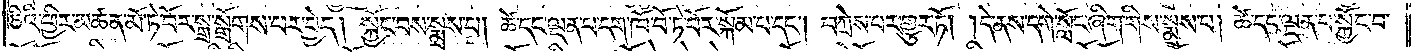ཅིའི་ཕྱིར་མཚན་མོ་ཏེ་བོར་སྒྲ་སྒྲོགས་པར་བྱེད། སྐྱོང་བས་སྨྲས་པ། ཚེ་དང་ལྡན་པ་དག་ཁོ་བོ་ཏེ་བོར་སྐོམ་པ་དང༌། བཀྲེས་པར་གྱུར་ཏོ། །དེ་ནས་དགེ་སློང་ཞིག་གིས་སྨྲས་པ། ཚེ་དང་ལྡན་པ་སྐྱོང་བ་
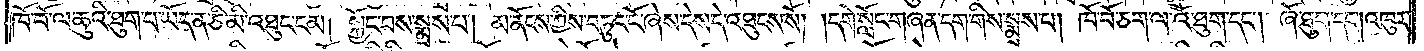ཁོ་བོ་ལ་ཆུའི་ཐུག་པ་ཡོད་ན་ཅི་མི་འཐུང་ངམ། སྐྱོང་བས་སྨྲས་པ། མ་ནོངས་ཀྱིས་བཏུང་ངོ་ཞེས་དེས་དེ་འཐུངས་སོ། །དགེ་སློང་གཞན་དག་གིས་སྨྲས་པ། ཁོ་བོ་ཅག་ལ་འོ་ཐུག་དང༌། ཞོ་ཐུག་དང༌། འཁུར་
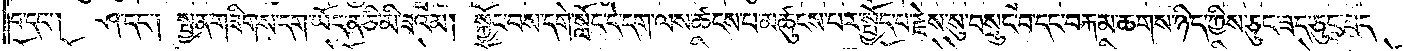བ་དང༌། ཤ་དང༌། སྤྱན་གཟིགས་དག་ཡོད་ན་ཅི་མི་ཟའམ། སྐྱོང་བས་དགེ་སློང་དེ་དག་ལས་ཚངས་པ་མཚུངས་པར་སྤྱོད་པ་རྗེས་སུ་བསྲུང་བ་དང་བརྐམ་ཆགས་ཉིད་ཀྱིས་ཅུང་ཟད་ཅུང་ཟད་
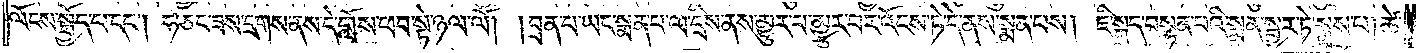ལོངས་སྤྱོད་པ་དང༌། ཧ་ཅང་ཟས་དྲགས་ནས་དེ་གློས་ཕབ་སྟེ་ཉལ་ལོ། །བྲན་པ་ཡང་སྨན་པ་ལ་དྲིས་ནས་མྱུར་བ་མྱུར་བར་འོངས་ཏེ་དེ་ནས་སྨན་པས། ཇི་སྐད་བསྟན་པའི་སྨན་སྦྱར་ཏེ་སྨྲས་པ། ཚེ་
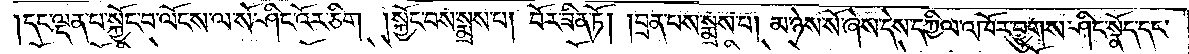དང་ལྡན་པ་སྐྱོང་བ་ལོངས་ལ་སོ་ཤིང་འོར་ཅིག །སྐྱོང་བས་སྨྲས་པ། བོར་ཟིན་ཏོ། །བྲན་པས་སྨྲས་པ། མ་ཉེས་སོ་ཞེས་དེས་དཀྱིལ་འཁོར་བྱུགས་ཤིང་སྣོད་དང་
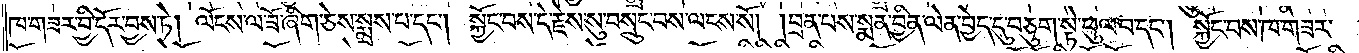ཁ་གཟར་བྱི་དོར་བྱས་ཏེ། ལོངས་ལ་ཟོ་ཞིག་ཅེས་སྨྲས་པ་དང༌། སྐྱོང་བས་དེ་རྗེས་སུ་བསྲུང་བས་ལངས་སོ། །བྲན་པས་སྨན་བྱིན་ལེན་བྱེད་དུ་བཅུག་སྟེ་ཕུལ་བ་དང༌། སྐྱོང་བས་ཁ་གཟར་
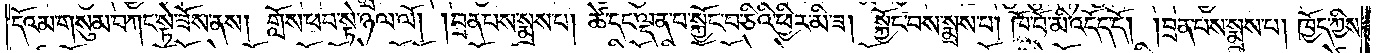དོའམ་གསུམ་བཀང་སྟེ་ཟོས་ནས། གློས་ཕབ་སྟེ་ཉལ་ལོ། །བྲན་པས་སྨྲས་པ། ཚེ་དང་ལྡན་པ་སྐྱོང་བ་ཅིའི་ཕྱིར་མི་ཟ། སྐྱོང་བས་སྨྲས་པ། ཁོ་བོ་མི་འདོད་དོ། །བྲན་པས་སྨྲས་པ། ཁྱོད་ཀྱིས་
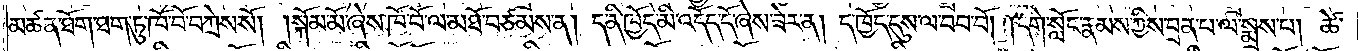མཚན་ཐོག་ཐག་ཏུ་ཁོ་བོ་བཀྲེས་སོ། །སྐོམ་མོ་ཞེས་ཁོ་བོ་ལ་མཐོ་བཙམས་ན། ད་ནི་ཁྱོད་མི་འདོད་དོ་ཞེས་ཟེར་ན། ད་ཁྱོད་དུས་ལ་བབ་བོ། །དགེ་སློང་རྣམས་ཀྱིས་བྲན་པ་ལ་སྨྲས་པ། ཚེ་
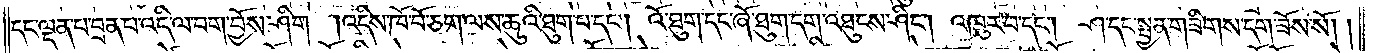དང་ལྡན་པ་བྲན་པ་འདི་ལ་བག་བྱོས་ཤིག །འདིས་ཁོ་བོ་ཅག་ལས་ཆུའི་ཐུག་པ་དང༌། འོ་ཐུག་དང་ཞོ་ཐུག་དག་འཐུངས་ཤིང༌། འཁུར་བ་དང༌། ཤ་དང་སྤྱན་གཟིགས་དག་ཟོས་སོ། །
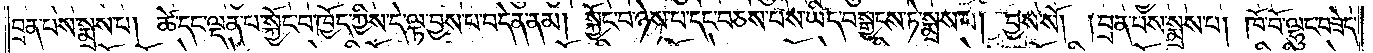བྲན་པས་སྨྲས་པ། ཚེ་དང་ལྡན་པ་སྐྱོང་བ་ཁྱོད་ཀྱིས་དེ་ལྟ་བྱས་པ་བདེན་ནམ། སྐྱོང་བ་ཉེས་པ་དང་བཅས་པས་ཡིད་བསྒྱངས་ཏེ་སྨྲས་པ། བྱས་སོ། །བྲན་པས་སྨྲས་པ། ཁོ་བོ་ལྷུང་བཟེད་
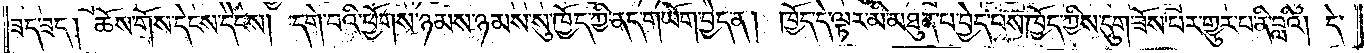ཟད་ཟད། ཆོས་གོས་དེངས་དེངས། དགེ་བའི་ཕྱོགས་ཉམས་ཉམས་སུ་ཁྱོད་ཀྱི་ནད་གཡོག་བྱེད་ན། ཁྱོད་དེ་ལྟར་མི་མཐུན་པ་བྱེད་པས་ཁྱོད་ཀྱིས་དུག་ཟོས་པར་གྱུར་པ་ནི་བླའི། དེ་
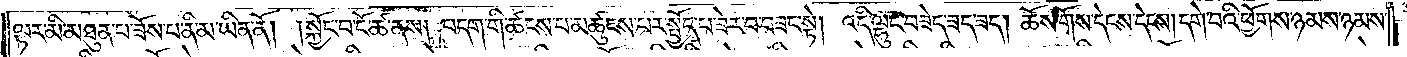ལྟར་མི་མཐུན་པ་ཟོས་པ་ནི་མ་ཡིན་ནོ། །སྐྱོང་བ་ངོ་ཚ་ནས། བདག་གི་ཚངས་པ་མཚུངས་པར་སྤྱོད་པ་ཟེར་བ་བཟང་སྟེ། འདི་ལྷུང་བཟེད་ཟད་ཟད། ཆོས་གོས་དེངས་དེངས། དགེ་བའི་ཕྱོགས་ཉམས་ཉམས་
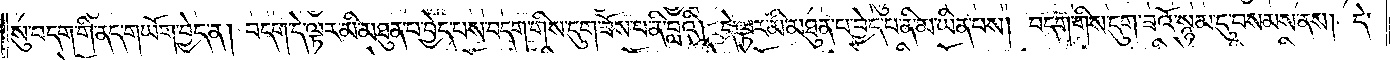སུ་བདག་གི་ནད་གཡོག་བྱེད་ན། བདག་དེ་ལྟར་མི་མཐུན་པ་བྱེད་པས་བདག་གིས་དུག་ཟོས་པ་ནི་བླའི། དེ་ལྟར་མི་མཐུན་པ་བྱེད་པ་ནི་མ་ཡིན་པས། བདག་གིས་དུག་ཟའོ་སྙམ་དུ་བསམས་ནས། དེ་
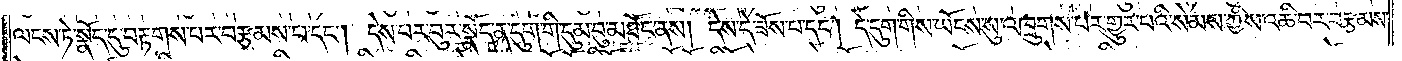ལངས་ཏེ་སྣོད་དུ་བརྟགས་པར་བརྩམས་པ་དང༌། དེས་པར་བུར་སྣོད་ན་དུག་གི་དུམ་བུ་མཐོང་ནས། དེས་དེ་ཟོས་པ་དང༌། དེ་དུག་གིས་ཡོངས་སུ་འཁྲུགས་པར་གྱུར་པའི་སེམས་ཀྱིས་འཆི་བར་བརྩམས་
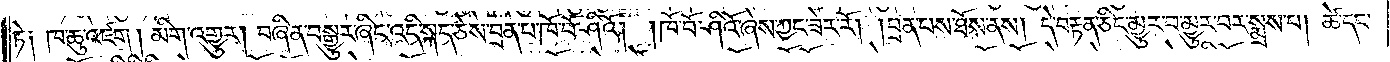ཏེ༑ ཁ་ཆུ་འཛག། མིག་འགྱུར། བཞིན་བསྒྱུར་ཞིང་འདི་སྐད་ཅེས་བྲན་པ་ཁོ་བོ་ཤིའོ། །ཁོ་བོ་ཤིའོ་ཞེས་ཀྱང་ཟེར་རོ། །བྲན་པས་ཐོས་ནས། དེ་བརྟན་ཅིང་མྱུར་བ་མྱུར་བར་སྨྲས་པ། ཚེ་དང་
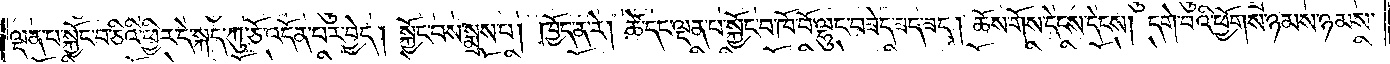ལྡན་པ་སྐྱོང་བ་ཅིའི་ཕྱིར་དེ་སྐད་ཀུ་ཅོ་འདོན་པར་བྱེད། སྐྱོང་བས་སྨྲས་པ། ཁྱོད་ན་རེ། ཚེ་དང་ལྡན་པ་སྐྱོང་བ་ཁོ་བོ་ལྷུང་བཟེད་ཟད་ཟད། ཆོས་གོས་དེངས་དེངས། དགེ་བའི་ཕྱོགས་ཉམས་ཉམས་
